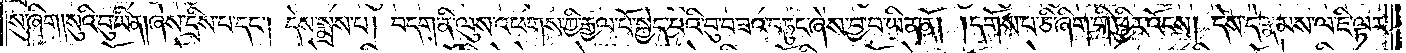སུ་ཞིག །སུའི་བུ་ཡིན། ཞེས་དྲིས་པ་དང༌། དེས་སྨྲས་པ། བདག་ནི་ལུས་འཕགས་ཀྱི་རྒྱལ་པོ་སྐྱེད་པའི་བུ་བཟའ་བཏུང་ཞེས་བྱ་བ་ཡིན་ནོ། །དགོས་པ་ཅི་ཞིག་གི་ཕྱིར་འོངས། དེས་དེ་རྣམས་ལ་ཇི་ལྟར་
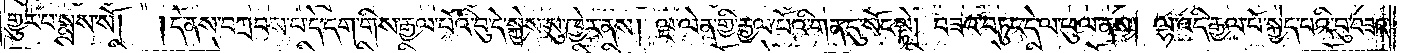གྱུར་པ་སྨྲས་སོ། །དེ་ནས་བཀྲབས་པ་དེ་དག་གིས་རྒྱལ་པོའི་བུ་དེ་སྐྱེས་སུ་ཁྱེར་ནས། ལྔ་ལེན་གྱི་རྒྱལ་པོའི་གན་དུ་སོང་སྟེ། བཟའ་བཏུང་དེ་ལ་ཕུལ་ནས། ལྷ་འདི་རྒྱལ་པོ་སྐྱེད་པའི་བུ་བཟའ་
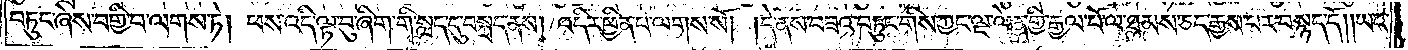བཏུང་ཞེས་བགྱི་བ་ལགས་ཏེ། ཕས་འདི་ལྟ་བུ་ཞིག་གི་སླད་དུ་བསྐྲད་ནས། འདིར་ཕྱིན་པ་ལགས་སོ། །དེ་ནས་བཟའ་བཏུང་གིས་ཀྱང་ལྔ་ལེན་གྱི་རྒྱལ་པོ་ལ་ཐམས་ཅད་རྒྱས་པར་བསྙད་དོ། །ཡང་
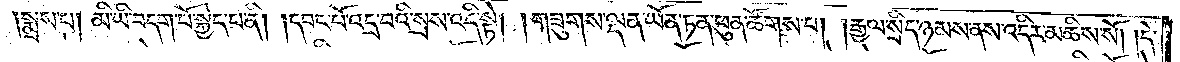སྨྲས་པ། མི་ཡི་བདག་པོ་སྐྱེད་པ་ནི། །དབང་པོ་འདྲ་བའི་སྲས་འདི་སྟེ། །གཟུགས་ལྡན་ཡོན་ཏན་ཕུན་ཚོགས་པ། །རྒྱལ་སྲིད་ཉམས་ནས་འདིར་མཆིས་སོ། །དེ་
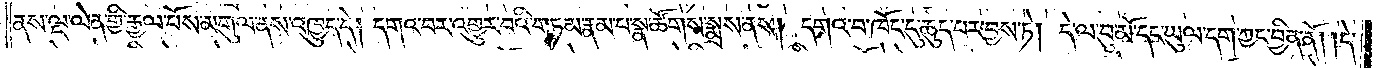ནས་ལྔ་ལེན་གྱི་རྒྱལ་པོས་མགུལ་ནས་འཁྱུད་དེ། དགའ་བར་འགྱུར་བའི་གཏམ་རྣམ་པ་སྣ་ཚོགས་སྨྲས་ནས། དགའ་བ་ཁོང་དུ་ཆུད་པར་བྱས་ཏེ། དེ་ལ་བུ་མོ་དང་ཡུལ་དག་ཀྱང་བྱིན་ནོ། །དེ་
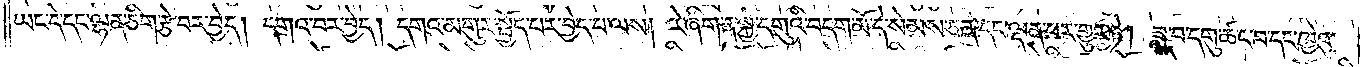ཡང་དེ་དང་ལྷན་ཅིག་རྩེ་བར་བྱེད། དགའ་བར་བྱེད། དགའ་མགུར་སྤྱོད་པར་བྱེད་པ་ལས། རེ་ཞིག་ན་སྐྱེ་དགུའི་བདག་མོ་དེ་སེམས་ཅན་དང་ལྡན་པར་གྱུར་ཏེ། ཟླ་བ་དགུ་ཚང་བ་དང་ཁྱེའུ་
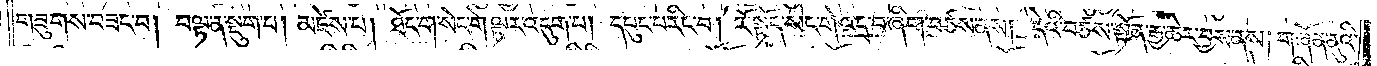གཟུགས་བཟང་བ། བལྟ་ན་སྡུག་པ། མཛེས་པ། ཐོང་ག་སེང་གེ་ལྟར་འདུག་པ། དཔུང་པ་རིང་བ། རོ་སྟོད་སེང་གེ་འདྲ་བ་ཞིག་བཙས་ནས། དེའི་བཙས་སྟོན་རྒྱ་ཆེར་བྱས་ནས། གཞོན་ནུའི་
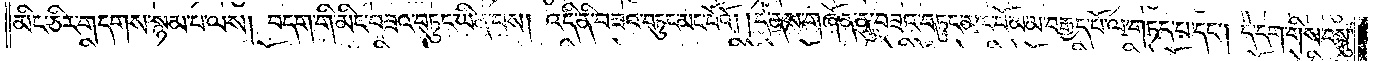མིང་ཅིར་གདགས་སྙམ་པ་ལས། བདག་གི་མིང་བཟའ་བཏུང་ཡིན་པས། འདི་ནི་བཟའ་བཏུང་མང་པོའོ། །དེ་ནས་གཞོན་ནུ་བཟའ་བཏུང་མང་པོ་མ་མ་བརྒྱད་པོ་ལ་གཏད་པ་དང༌། དེ་དག་གིས་བསྐུ་
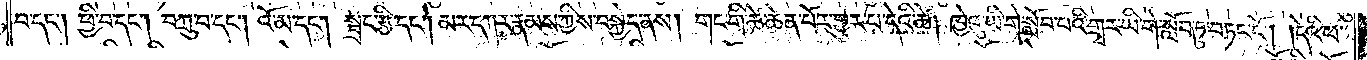བ་དང༌། ཕྱི་བ་དང༌། བཀྲུ་བ་དང༌། འོ་མ་དང༌། སྦྲང་རྩི་དང༌། མར་དཀར་རྣམས་ཀྱིས་བསྐྱེད་ནས། གང་གི་ཚེ་ཆེན་པོར་གྱུར་པ་དེའི་ཚེ། ཁྱེའུ་ཡི་གེ་སློབ་པའི་གྲྭར་ཡི་གེ་སློབ་ཏུ་བཏང་ངོ༌། །དེའི་ཕ་
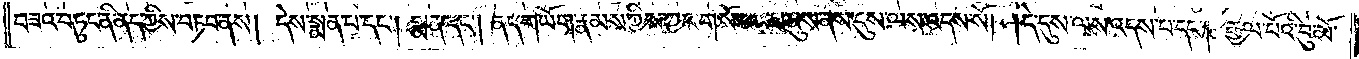བཟའ་བཏུང་ནི་ནད་ཀྱིས་བཏབ་ནས། དེས་སྨན་པ་དང༌། སྨན་དང༌། ནད་གཡོག་རྣམས་ཀྱིས་ཀྱང་གསོ་བར་མ་ནུས་ནས་དུས་ལས་འདས་སོ། །དེ་དུས་ལས་འདས་པ་དང༌། རྒྱལ་པོའི་བུ་མོ་
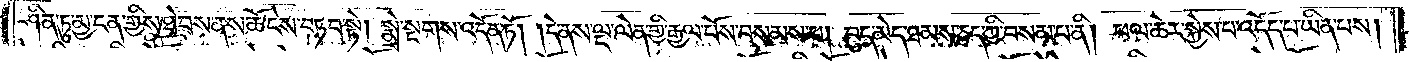ཤིན་ཏུ་མྱ་ངན་གྱིས་ཐེབས་ནས་ཆོ་ངེས་བཏབ་སྟེ། སྨྲེ་སྔགས་འདོན་ཏོ། །དེ་ནས་ལྔ་ལེན་གྱི་རྒྱལ་པོས་བསམས་པ། བུད་མེད་ཐམས་ཅད་ཀྱི་བསམ་པ་ནི། ཕལ་ཆེར་སྐྱེས་པ་འདོད་པ་ཡིན་པས།
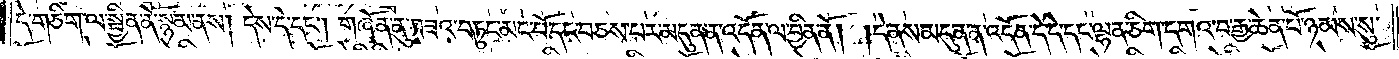དེ་གཅིག་ལ་སྦྱིན་ནོ་སྙམ་ནས། དེས་དེ་དང༌། གཞོན་ནུ་བཟའ་བཏུང་མང་པོ་དང་བཅས་པར་མདུན་ན་འདོན་ལ་བྱིན་ནོ། །དེ་ནས་མདུན་ན་འདོན་དེ་དེ་དང་ལྷན་ཅིག་དགའ་བ་རྒྱ་ཆེན་པོ་ཉམས་སུ་
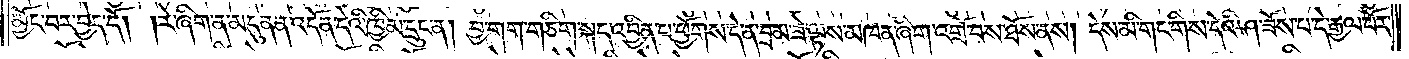མྱོང་བར་བྱེད་དོ། །རེ་ཞིག་ན་མདུན་ན་འདོན་དེའི་ཁྱིམ་དྲུང་ན། བྱ་གག་གཅིག་སྐད་འབྱིན་པ་ཕྱོགས་དེ་ན་བྲམ་ཟེ་ལྟས་མཁན་ཞིག་འགྲོ་བས་ཐོས་ནས། དེས་མི་གང་གིས་དེའི་ཤ་ཟོས་པ་དེ་རྒྱལ་པོར་
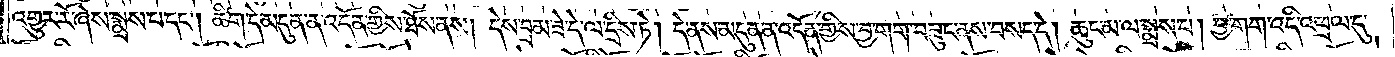འགྱུར་རོ་ཞེས་སྨྲས་པ་དང༌། ཚིག་དེ་མདུན་ན་འདོན་གྱིས་ཐོས་ནས། དེས་བྲམ་ཟེ་དེ་ལ་དྲིས་ཏེ། དེ་ནས་མདུན་ན་འདོན་གྱིས་བྱ་གག་བཟུང་ནས་བསད་དེ། ཆུང་མ་ལ་སྨྲས་པ། བྱ་གག་འདི་འཕྲལ་དུ་
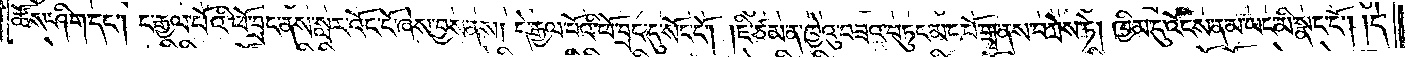ཚོས་ཤིག་དང༌། ང་རྒྱལ་པོའི་ཕོ་བྲང་ནས་སླར་འོང་ངོ་ཞེས་བྱས་ནས། དེ་རྒྱལ་པོའི་ཕོ་བྲང་དུ་སོང་ངོ༌། །ཇི་ཙམ་ན་ཁྱེའུ་བཟའ་བཏུང་མང་པོ་གྲྭ་ནས་བཀྲེས་ཏེ། ཁྱིམ་དུ་འོངས་ན་མ་ཡང་མི་སྣང་ངོ༌། །དེ་
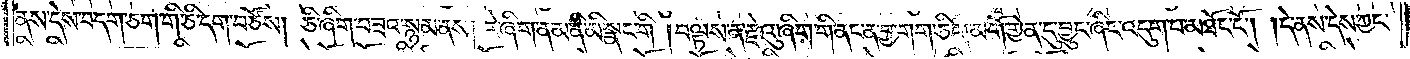ནས་དེས་བདག་ཅག་གི་ཅི་དག་བཙོས། ཅི་ཞིག་བཟའ་སྙམ་ནས། རེ་ཞིག་ན་མ་ནི་མི་སྣང་གི །བལྟས་ན་རྫེའུ་ཞིག་གི་ནང་ན་བྱ་གག་ཅིག་མགོ་གྱེན་དུ་བྱུང་ཞིང་འདུག་པ་མཐོང་ངོ༌། །དེ་ནས་དེས་ཀྱང་
